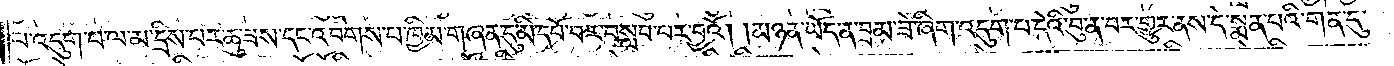པ་འདུག་པ་ལ་མ་དྲིས་བར་ཆུ་ཟས་དང་འབགས་པ་ཁྱིམ་གཞན་དུ་མི་དབོ་བར་བསླབ་པར་བྱའོ། །མཉན་ཡོད་ན་བྲམ་ཟེ་ཞིག་འདུག་པ་དེའི་བུ་ན་བར་གྱུར་ནས་དེ་སྨན་པའི་གན་དུ་
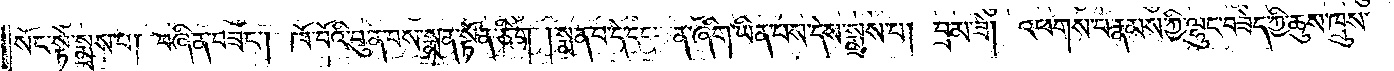སོང་སྟེ་སྨྲས་པ། བཞིན་བཟང༌། ཁོ་བོའི་བུ་ན་བས་སྨན་སྟོན་ཅིག །སྨན་པ་དེ་དད་ཅན་ཞིག་ཡིན་པས་དེས་སྨྲས་པ། བྲམ་ཟེ། འཕགས་པ་རྣམས་ཀྱི་ལྷུང་བཟེད་ཀྱི་ཆུས་ཁྲུས་
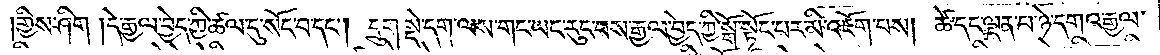གྱིས་ཤིག །དེ་རྒྱལ་བྱེད་ཀྱི་ཚལ་དུ་སོང་བ་དང༌། དྲུག་སྡེ་དག་ལས་གང་ཡང་རུང་བས་རྒྱལ་བྱེད་ཀྱི་སྒོ་སྟོང་བར་མི་འཇོག་པས། ཚེ་དང་ལྡན་པ་ཉེ་དགའ་རྒྱལ་
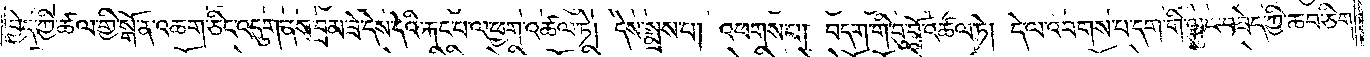བྱེད་ཀྱི་ཚལ་གྱི་སྒོ་ན་འཆག་ཅིང་འདུག་ནས་བྲམ་ཟེ་དེས་དེའི་རྐང་པ་ལ་ཕྱག་འཚལ་ཏེ། དེས་སྨྲས་པ། འཕགས་པ། བདག་གི་བུ་བྲོ་འཚལ་ཏེ། དེ་ལ་འབགས་པ་དག་གི་ལྷུང་བཟེད་ཀྱི་ཆབ་ཅིག་
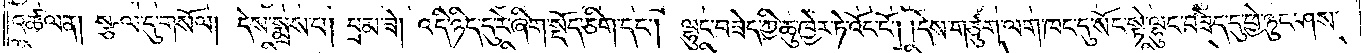འཚལ་ན། སྩལ་དུ་གསོལ། དེས་སྨྲས་པ། བྲམ་ཟེ། འདི་ཉིད་དུ་རེ་ཞིག་སྡོད་ཅིག་དང༌། ལྷུང་བཟེད་ཀྱི་ཆུ་ཁྱེར་ཏེ་འོང་ངོ༌། །དེས་གཙུག་ལག་ཁང་དུ་སོང་སྟེ་ལྷུང་བཟེད་དུ་ཕྱེ་ཉུང་ཤས་
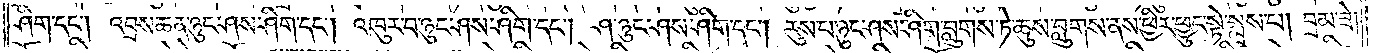ཤིག་དང༌། འབྲས་ཆན་ཉུང་ཤས་ཤིག་དང༌། འཁུར་བ་ཉུང་ཤས་ཤིག་དང༌། ཤ་ཉུང་ཤས་ཤིག་དང༌། རུས་པ་ཉུང་ཤས་ཤིག་བླུགས་ཏེ་ཆུས་བླུགས་ནས་ཕྱིར་ཕྱུང་སྟེ་སྨྲས་པ། བྲམ་ཟེ།
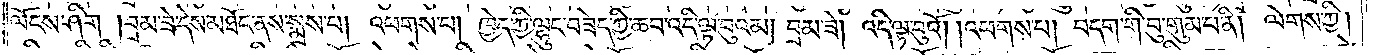ལོངས་ཤིག །བྲམ་ཟེ་དེས་མཐོང་ནས་སྨྲས་པ། འཕགས་པ། ཁྱེད་ཀྱི་ལྷུང་བཟེད་ཀྱི་ཆབ་འདི་ལྟ་བུའམ། བྲམ་ཟེ། འདི་ལྟ་བུའོ། །འཕགས་པ། བདག་གི་བུ་གུམ་པ་ནི། ལེགས་ཀྱི།
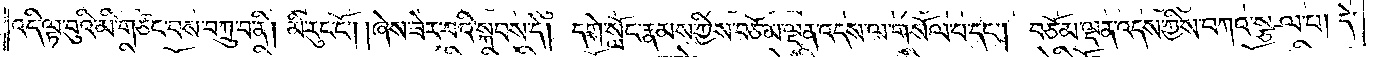འདི་ལྟ་བུའི་མི་གཙང་བས་བཀྲུ་བ་ནི། མི་རུང་ངོ༌། །ཞེས་ཟེར་བའི་སྐབས་དེ། དགེ་སློང་རྣམས་ཀྱིས་བཅོམ་ལྡན་འདས་ལ་གསོལ་པ་དང༌། བཅོམ་ལྡན་འདས་ཀྱིས་བཀའ་སྩལ་པ། དེ་
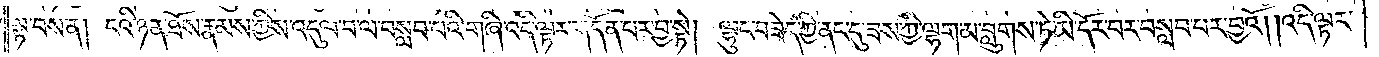ལྟ་བས་ན། ངའི་ཉན་ཐོས་རྣམས་ཀྱིས་འདུལ་བ་ལ་བསླབ་པའི་གཞི་འདི་ལྟར་གདོན་པར་བྱ་སྟེ། ལྷུང་བཟེད་ཀྱི་ནང་དུ་ཟས་ཀྱི་ལྷག་མ་བླུགས་ཏེ་མི་དོར་བར་བསླབ་པར་བྱའོ། །འདི་ལྟར་
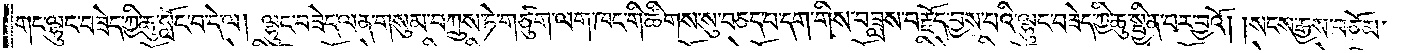གང་ལྷུང་བཟེད་ཀྱི་ཆུ་སློང་བ་དེ་ལ། ལྷུང་བཟེད་ལན་གསུམ་བཀྲུས་ཏེ་གཙུག་ལག་ཁང་གི་ཚིགས་སུ་བཅད་པ་དག་གིས་བཟླས་བརྗོད་བྱས་པའི་ལྷུང་བཟེད་ཀྱི་ཆུ་སྦྱིན་པར་བྱའོ། །སངས་རྒྱས་བཅོམ་
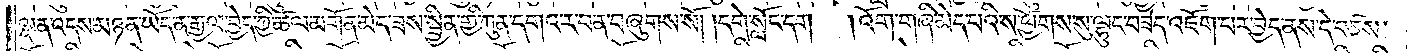ལྡན་འདས་མཉན་ཡོད་ན་རྒྱལ་བྱེད་ཀྱི་ཚལ་མགོན་མེད་ཟས་སྦྱིན་གྱི་ཀུན་དགའ་ར་བ་ན་བཞུགས་སོ། །དགེ་སློང་དག །འོག་གཞི་མེད་པའི་ས་ཕྱོགས་སུ་ལྷུང་བཟེད་འཇོག་པར་བྱེད་ནས་དེ་བཙས་
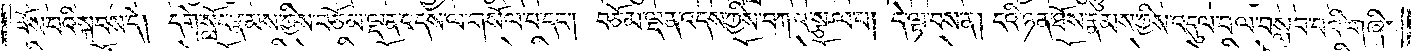ཟོས་པའི་སྐབས་དེ། དགེ་སློང་རྣམས་ཀྱིས་བཅོམ་ལྡན་འདས་ལ་གསོལ་པ་དང༌། བཅོམ་ལྡན་འདས་ཀྱིས་བཀའ་སྩལ་པ། དེ་ལྟ་བས་ན། ངའི་ཉན་ཐོས་རྣམས་ཀྱིས་འདུལ་བ་ལ་བསླབ་པའི་གཞི་
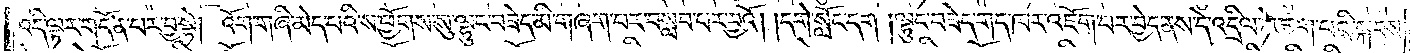འདི་ལྟར་གདོན་པར་བྱ་སྟེ། འོག་གཞི་མེད་པའི་ས་ཕྱོགས་སུ་ལྷུང་བཟེད་མི་གཞག་པར་བསླབ་པར་བྱའོ། །དགེ་སློང་དག །ལྷུང་བཟེད་གད་ཁར་འཇོག་པར་བྱེད་ནས་དེ་འདྲིལ་ཏེ་ཆག་པའི་སྐབས་
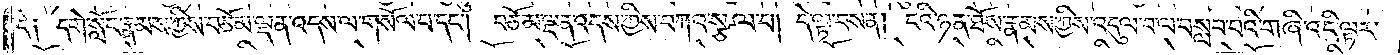དེ༑ དགེ་སློང་རྣམས་ཀྱིས་བཅོམ་ལྡན་འདས་ལ་གསོལ་པ་དང༌། བཅོམ་ལྡན་འདས་ཀྱིས་བཀའ་སྩལ་པ། དེ་ལྟ་བས་ན། ངའི་ཉན་ཐོས་རྣམས་ཀྱིས་འདུལ་བ་ལ་བསླབ་པའི་གཞི་འདི་ལྟར་
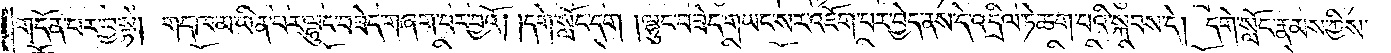གདོན་པར་བྱ་སྟེ། གད་ཁ་མ་ཡིན་པར་ལྷུང་བཟེད་གཞག་པར་བྱའོ། །དགེ་སློང་དག །ལྷུང་བཟེད་གཡང་སར་འཇོག་པར་བྱེད་ནས་དེ་འདྲིལ་ཏེ་ཆག་པའི་སྐབས་དེ། དགེ་སློང་རྣམས་ཀྱིས་
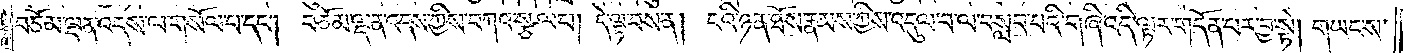བཅོམ་ལྡན་འདས་ལ་གསོལ་པ་དང༌། བཅོམ་ལྡན་འདས་ཀྱིས་བཀའ་སྩལ་པ། དེ་ལྟ་བས་ན། ངའི་ཉན་ཐོས་རྣམས་ཀྱིས་འདུལ་བ་ལ་བསླབ་པའི་གཞི་འདི་ལྟར་གདོན་པར་བྱ་སྟེ། གཡང་ས་
